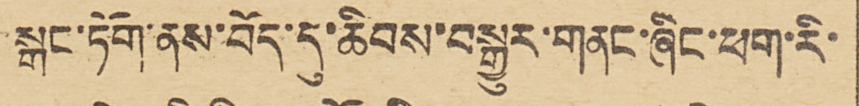སྒང་ཏོག་ནས་བོད་དུ་ཆིབས་བསྒྱུར་གནང་ཞིང་ཕག་རི་
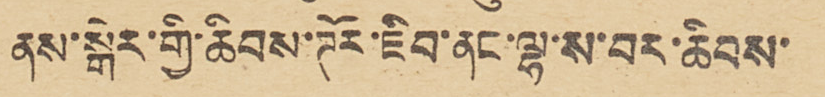ནས་སྒེར་གྱི་ཆིབས་ཊོར་ཇིབ་ནང་ལྷ་ས་བར་ཆིབས་
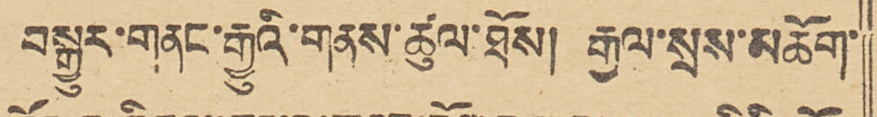བསྒྱུར་གནང་རྒྱུའི་གནས་ཚུལ་ཐོས། རྒྱལ་སྲས་མཆོག་
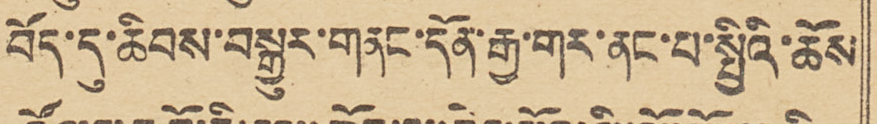བོད་དུ་ཆིབས་བསྒྱུར་གནང་དོན་རྒྱ་གར་ནང་པ་སྤྱིའི་ཆོས
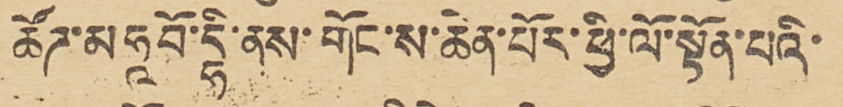ཚོཌ་མ ཧཱ བོ་དྷི་ནས་གོང་ས་ཆེན་པོར་ཕྱི་ལོ་སྟོན་པའི་
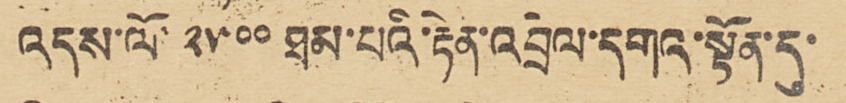འདས་ལོ་ ༢༥༠༠ ཐམ་པའི་རྟེན་འབྲེལ་དགའ་སྟོན་དུ་
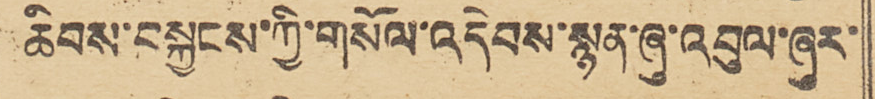ཆིབས་བསྐྱངས་ཀྱི་གསོལ་འདེབས་སྙན་ཞུ་འབུལ་ཞུར་
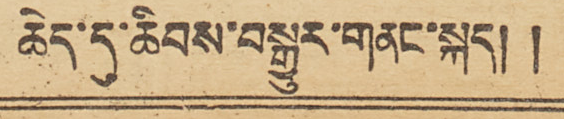ཆེད་དུ་ཆིབས་བསྒྱུར་གནང་སྐད། །
